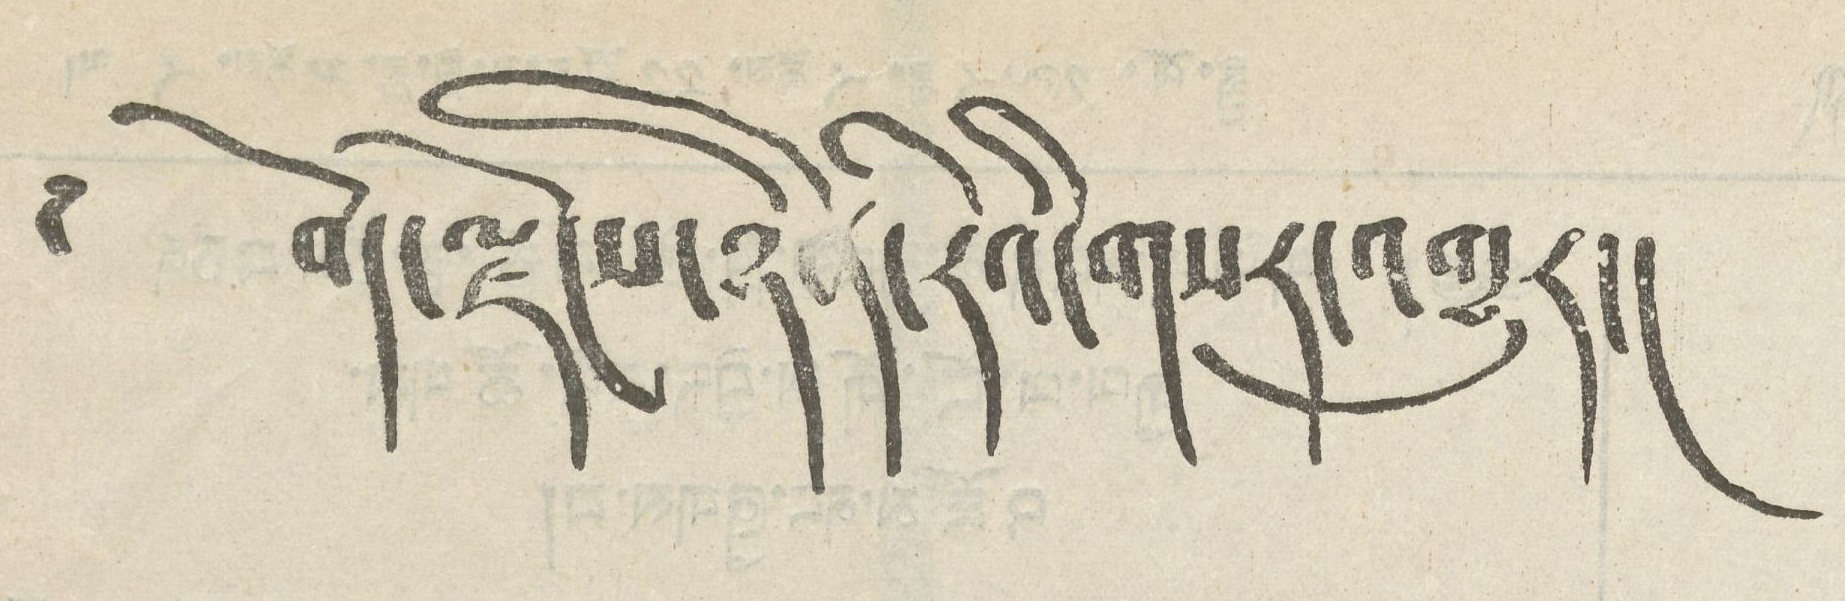༄༅། བོད་ལྗོང་ཉིན་རེའི་གསར་འགྱུར།
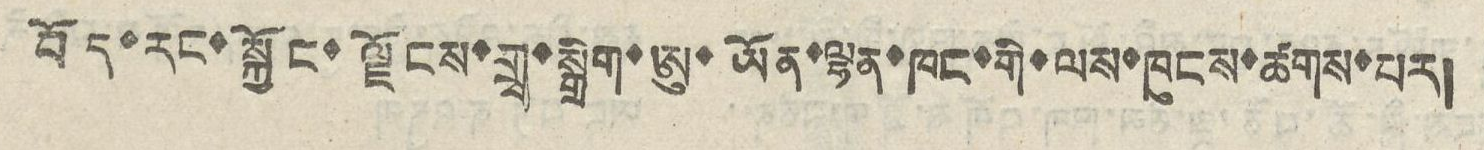བོད་རང་སྐྱོང་ལྗོངས་གྲྭ་སྒྲིག་ཨུ་ཡོན་ལྷན་ཁང་གི་ལས་ཁུངས་ཚགས་པར།
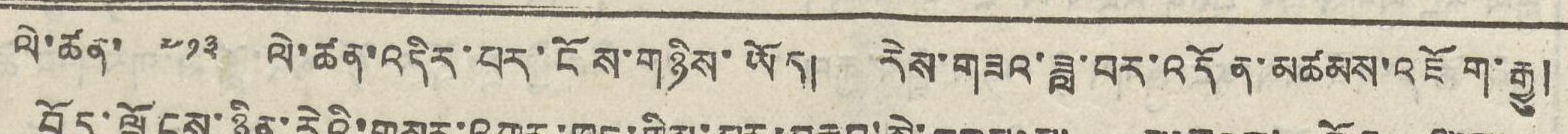ལེ་ཚན་ ༧༡༣ ལེ་ཚན་འདིར་པར་ངོས་གཉིས་ཡོད། རེས་གཟའ་ཟླ་བར་འདོན་མཚམས་འཇོག་རྒྱུ
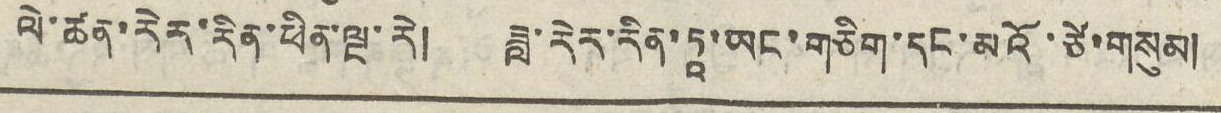ལེ་ཚན་རེར་རིན་ཕིན་ལྔ་རེ། ཟླ་རེར་རིན་ཏཱ་ཡང་གཅིག་དམ་མའོ་ཙེ་གསུམ།
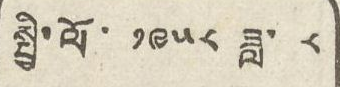སྤྱི་ལོ་ ༡༩༥༨ ཟླ་ ༨
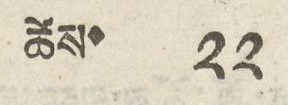ཚེས་ ༢༢
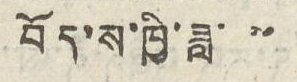བོད་ས་ཁྱི་ཟླ་ ༧
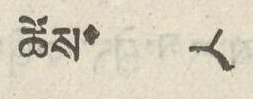ཚེས་ ༨
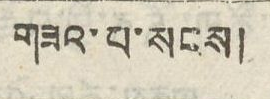གཟའ་པ་སངས།
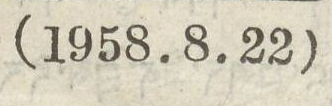(1958. 8. 22)
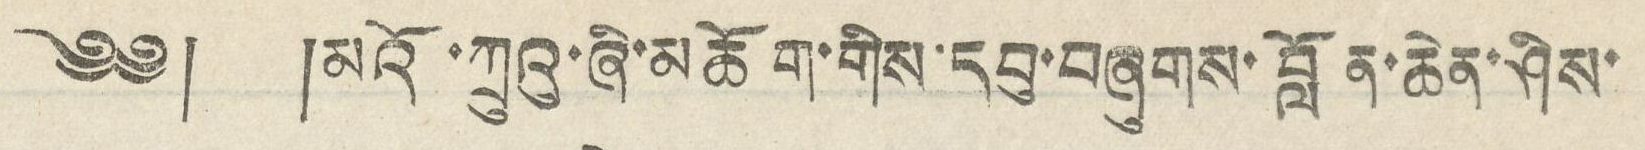༄༅། །མའོ་ཀྲུའུ་ཞི་མཆོག་གིས་དབུ་བཞུགས་བློན་ཆེན་ཤིས་
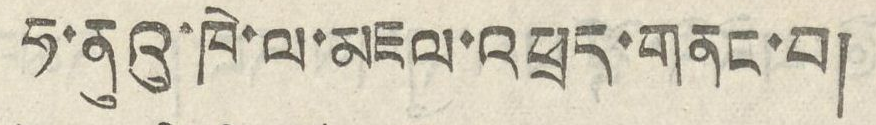ཧ་ནུའུ་ཁེ་ལ་མཇལ་འཕྲད་གནང་བ།
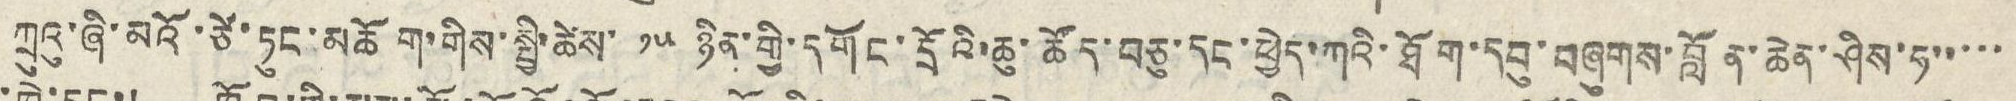ཀྲུའུ་ཞི་མའོ་ཙེ་ཏུང་མཆོག་གིས་སྤྱི་ཚེས་ ༡༥ ཉིན་གྱི་དགོང་དྲོའི་ཆུ་ཚོད་བཅུ་དང་ཕྱེད་ཀའི་ཐོག་དབུ་བཞུགས་བློན་ཆེན་ཤིས་ཧ་་་་་
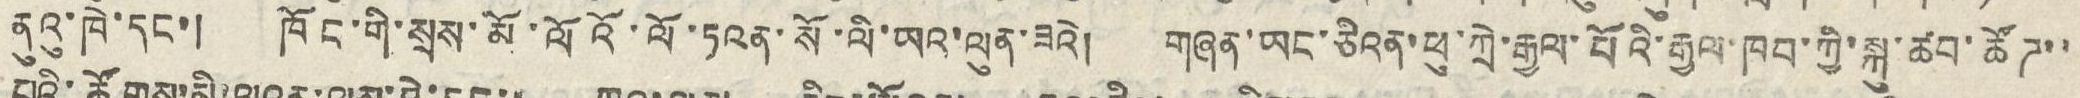ནུའུ་ཁེ་དང་། ཁོང་གི་སྲས་མོ་ལོའོ་ལོ་ཏའན་སོ་ལི་ཡའ་ལུན་ཟའེ། གཞན་ཡང་ཅིའན་ཕུ་ཀྲེ་རྒྱལ་པོའི་རྒྱལ་ཁབ་ཀྱི་སྐུ་ཚབ་ཚོཌ་་
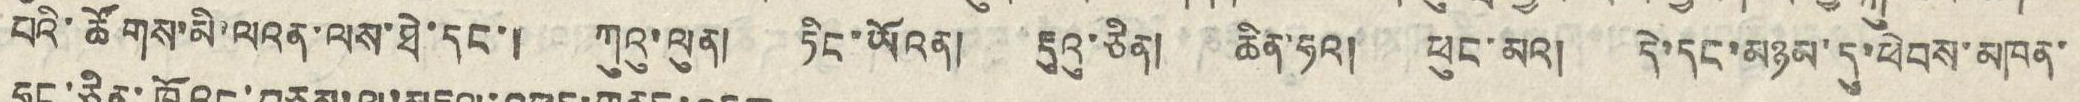པའི་ཚོགས་མི་ལའན་ལས་ཐེ་དང་། ཀུའུ་ལུན། ཏིང་ཡོའན། རྡུའུ་ཅིན། ཆིན་ཧའ། ཕུང་མའ། དེ་དང་མཉམ་དུ་ཕེབས་མཁན་
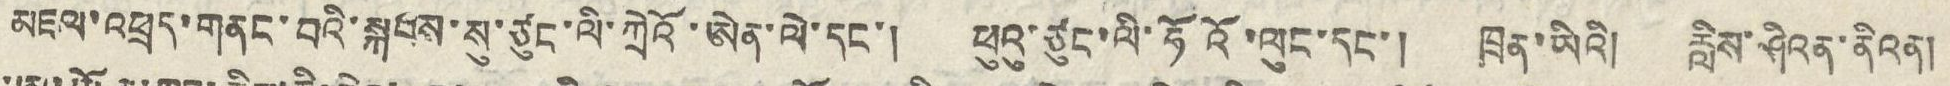མཇལ་འཕྲད་གནང་བའི་སྐབས་སུ་ཙུང་ལི་ཀྲེའོ་ཨེན་ལེ་དང་། ཕུའུ་ཙུང་ལི་ཧོའོ་ལུང་དང་། ཁྲན་ཡིའི། རླིས་ཤིའན་ནིའན།
